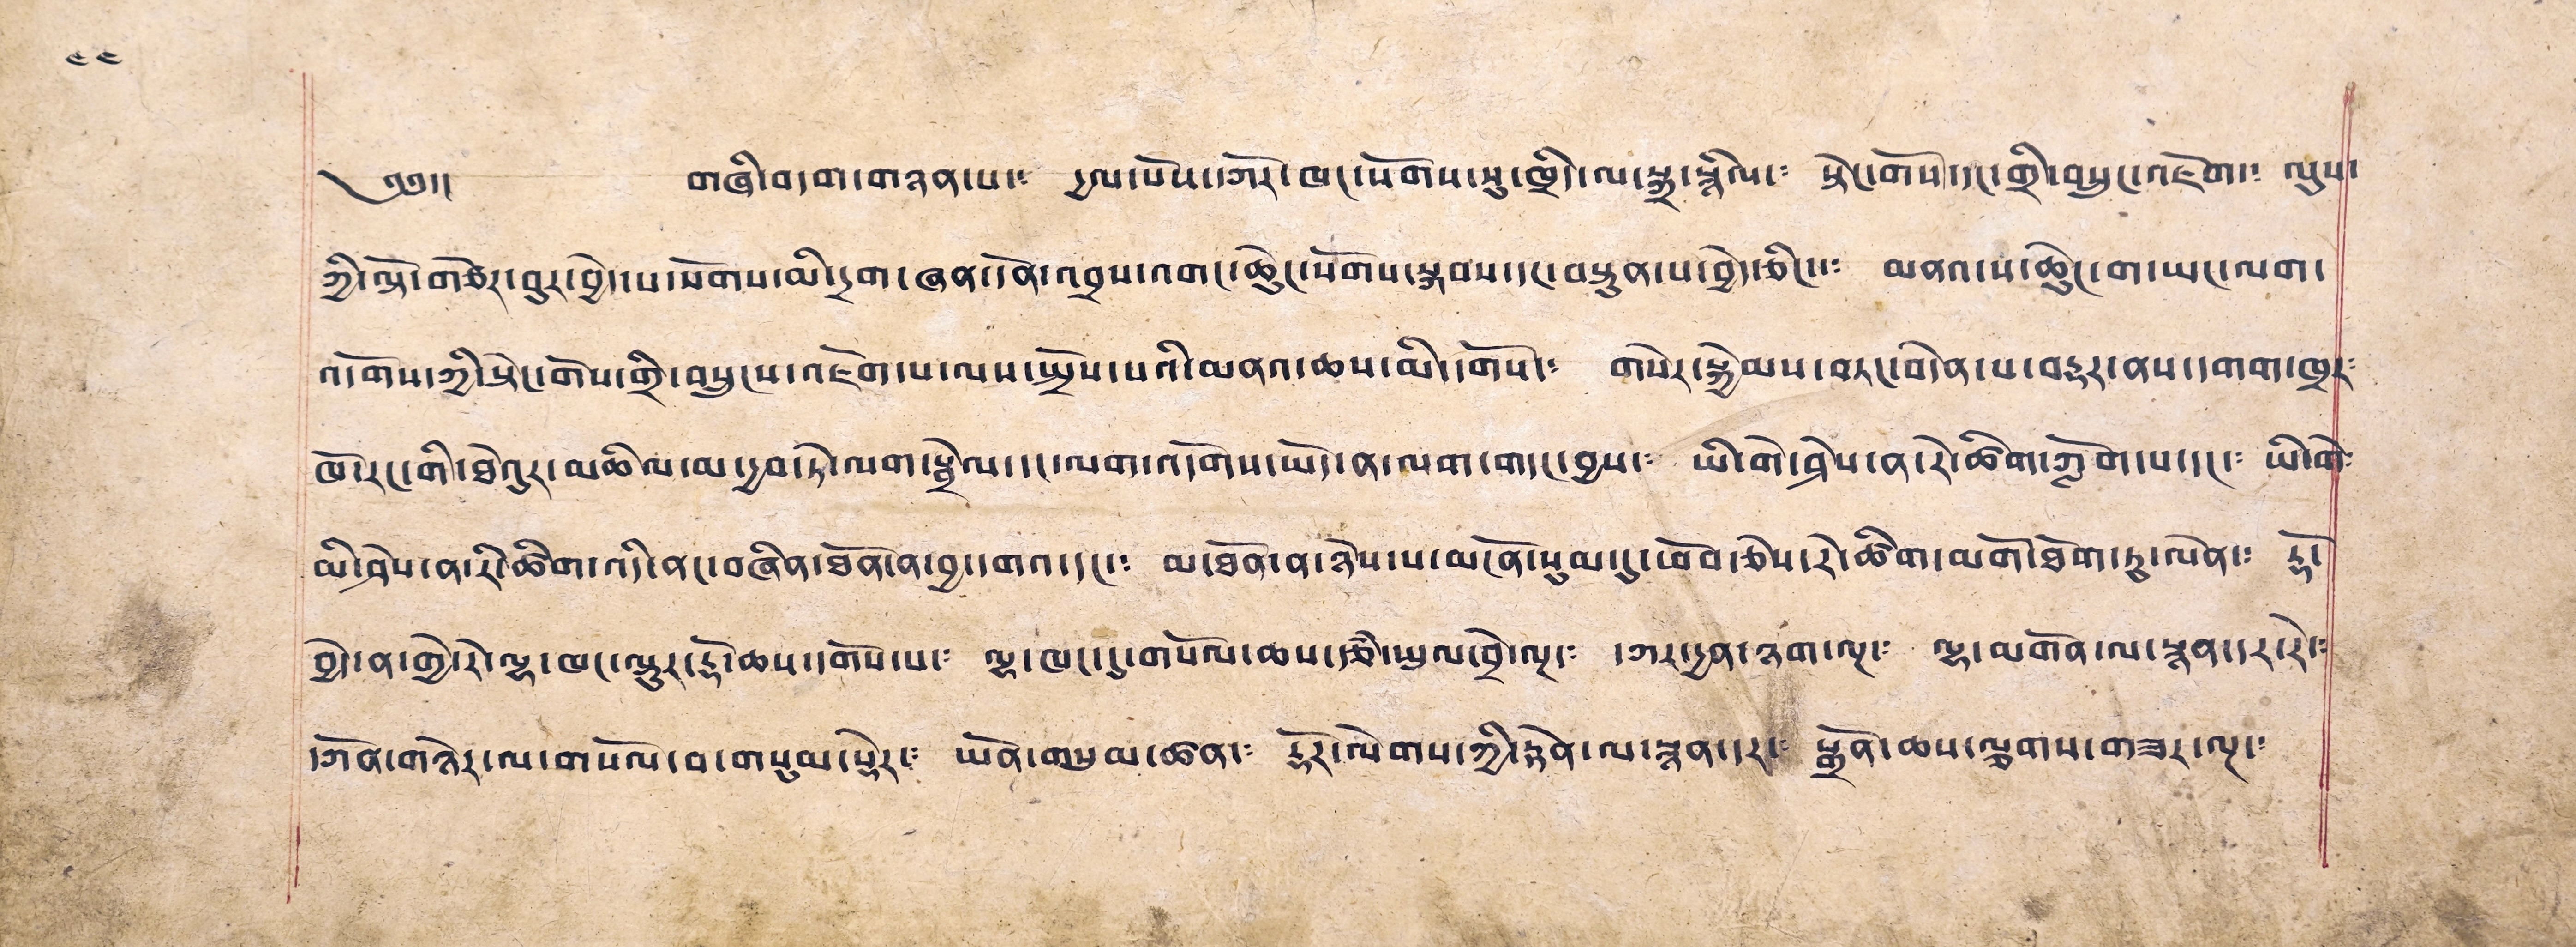༄༅།། གཞི་བདག་གཉན་པ་༴ དྱལ་པོས་དཀོར་ཁང་སོགས་སུ་ཁྲིད་ལ་སྐྲ་སྙིལ་༴ སྟེང་གོས་དང་གྲི་བསྲུང་འཇོག་༴ ལུས་
ཀྱི་ལྟོ་གཅོར་བུར་བྱེད་པ་སོགས་མི་དྲག་ཞན་དོན་འབྲས་འགང་ཆེུང་སོགས་སྐབས་དང་བསྟུན་པ་བྱེད་ཅིང་༴ མནའ་ས་ཆེུང་ག་ཡང་ལག་
འདོགས་ཀྱི་སྟེང་གོས་གྲི་བསྲུངས་འཇེག་པ་ལས་སྤྲོས་པའི་མནའ་ཆས་མི་དགོས་༴ གསེར་སྐྱེམས་བཏང་བདེན་པ་བརྡར་ནས་དགག་ཁྲར༴
ཁོ་རང་གི་ཐེའུར་མཆིལ་མ་དྱབ་ཏེ་ལག་སྦྲེལ་དང་ལག་འདོགས་ཡོད་ན་ལག་གདང་བྱས་༴ ཡི་གེ་ཤེས་ན་རེ་ཚིག་ཀློག་པ་དང་། ཡི་གེ༴
མི་ཤེས་ན་རི་ཚིག་འདི་ནང་བཞིན་ཐོན་ན་བྱ་དགའ་དང་༴ མ་ཐོན་ན་ཉེས་པ་མངོན་སུམ་དུ་ཕོབ་ཅེས་རེ་ཚིག་མགོ་ཐོག་ཏུ་ལེན་༴ རྡོ་
བྱེད་ན་གྱེ་རེ་ལྷ་ཁང་ལྟུར་རྡོ་ཆས་དགོས་པ་༴ ལྷ་ཁང་དུ་གསོལ་ཆས་རྩེ་ཡུལ་བྲེ་ལྔ་༴ དཀར་དྱན་ཉག་ལྔ་༴ ལྷ་མགོན་ལ་སྙན་དར་རེ༴
དཀོན་གཉེར་ལ་གསོལ་བ་གསུམ་སྡེར་༴ ཡོན་གསུམ་ཚན་༴ རྡོར་ལེགས་ཀྱི་རྟེན་ལ་རྙན་དར་༴ སྒྲོན་ཆས་ལྕགས་གཟར་ལྔ་༴
